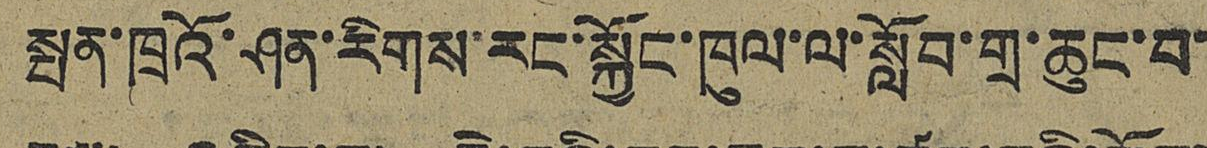སྤན་ཁྲའོ་ཤན་རིགས་རང་སྐྱོང་ཁུལ་ལ་སློབ་གྲ་ཆུང་བ་
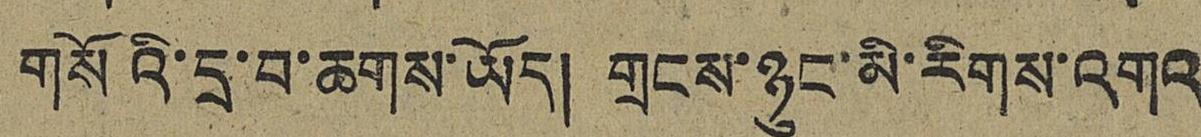གསོའི་དྲ་བ་ཆགས་ཡོད། གྲངས་ཉུང་མི་རིགས་འགའ
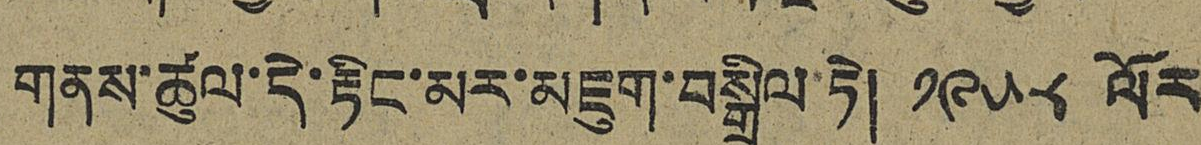གནས་ཚུལ་དེ་རྟིང་མར་མཇུག་བསྒྲིལ་ཏེ། ༡༩༥༨ ལོར་
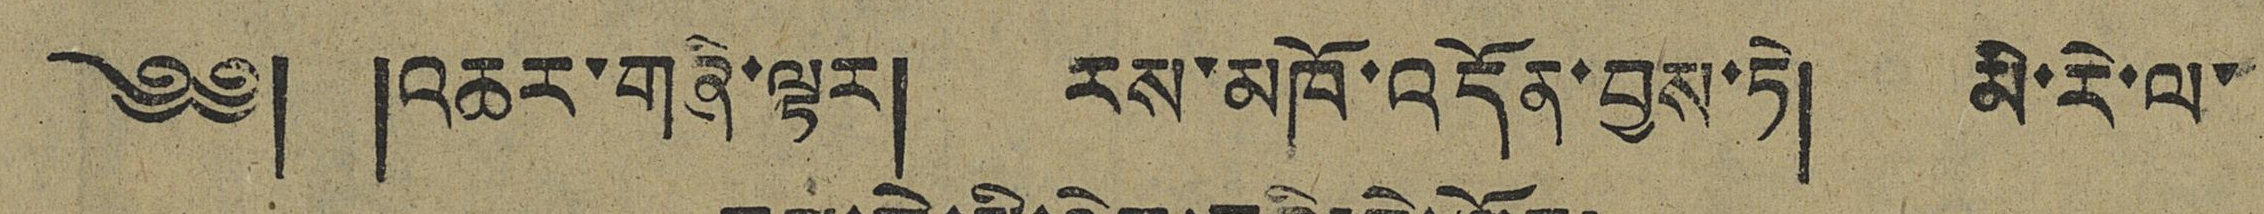༄༅། །འཆར་གཞི་ལྟར། རས་མཁོ་འདོན་བྱས་ཏེ། མི་རེ་ལ་
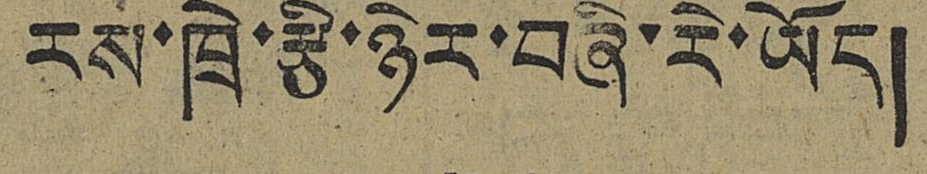རས་ཁྲེ་རྩི་ཉེར་བཞི་རེ་ཡོད།
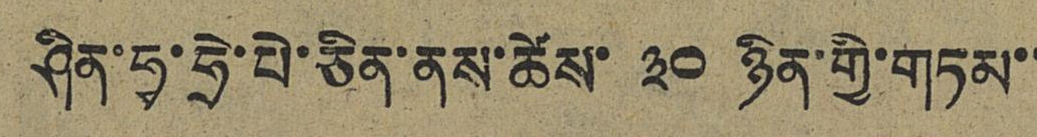ཤིན་ཧྭ་ཧྲེ་པེ་ཅིན་ནས་ཚེས་ ༣༠ ཉིན་གྱི་གཏམ་་
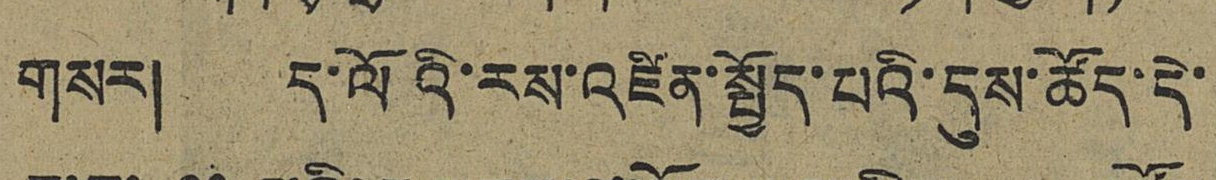གསར། ད་ལོའི་རས་འཛིན་སྤྱོད་པའི་དུས་ཚོད་དེ་
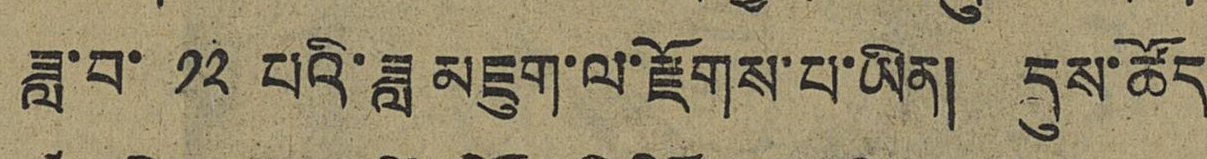ཟླ་བ་ ༡༢ པའི་ཟླ མཇུག་ལ་རྫོགས་པ་ཡིན། དུས་ཚོད
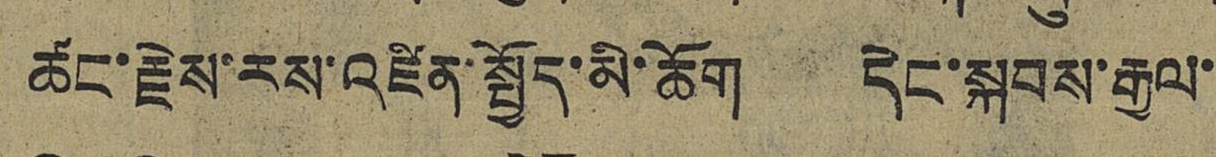ཚང་རྗེས་རས་འཛིན་སྤྱོད་མི་ཆོག དེང་སྐབས་རྒྱལ་
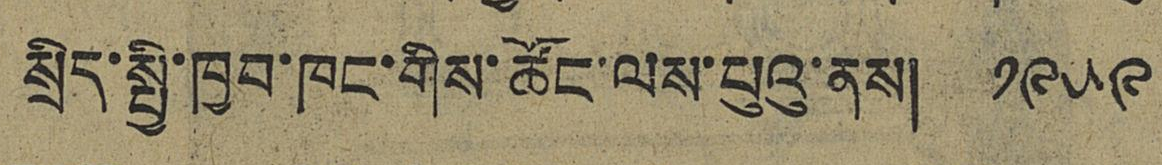སྲིད་སྤྱི་ཁྱབ་ཁང་གིས་ཚོང་ལས་པུའུ་ནས། ༡༩༥༩
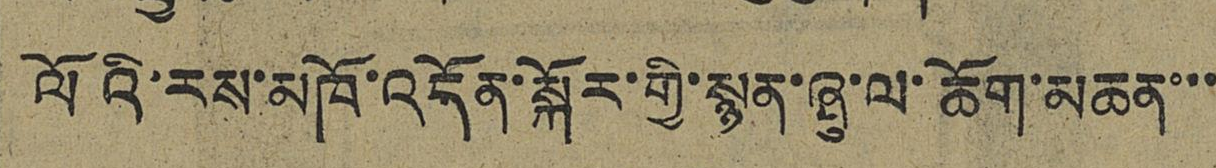ལོའི་རས་མཁོ་འདོན་སྐོར་གྱི་སྙན་ཞུ་ལ་ཆོག་མཆན་་་
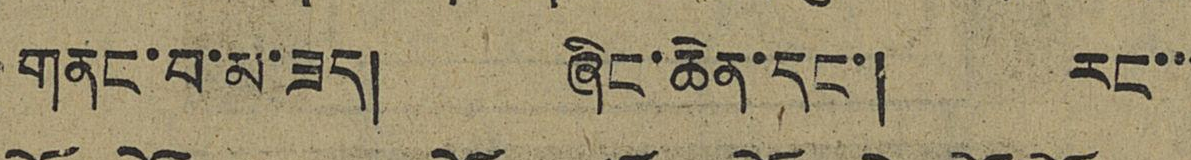གནང་བ་མ་ཟད། ཞིང་ཆེན་དང་། རང་་་
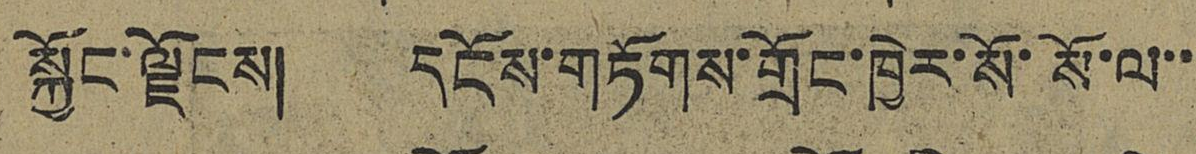སྐྱོང་ལྗོངས། དངོས་གཏོགས་གྲོང་ཁྱེར་སོ་སོ་ལ་་་
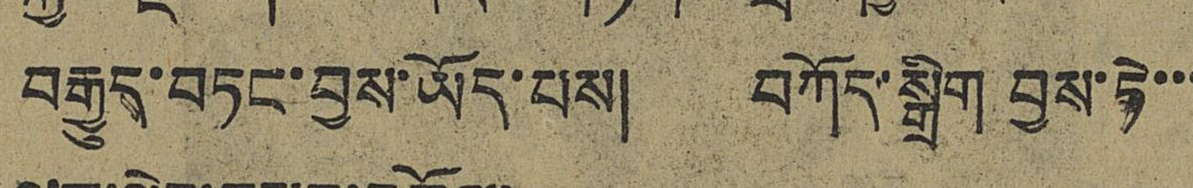བརྒྱུད་བཏང་བྱས་ཡོད་པས། བཀོད་སྒྲིག་བྱས་ཏེ་་་
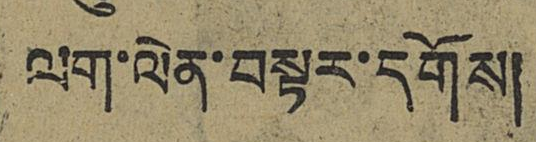ལག་ལེན་བསྟར་དགོས།
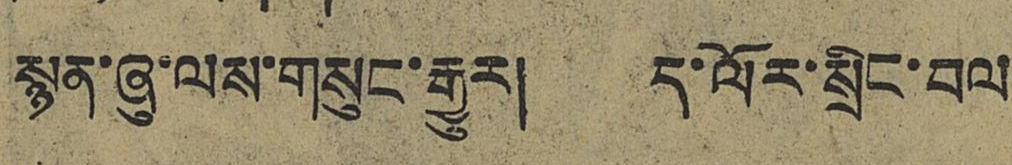སྙན་ཞུ་ལས་གསུང་རྒྱུར། ད་ལོར་སྲིང་བལ་
